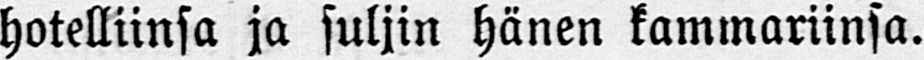hotelliinsa ja suljin hänen kammariinsa.
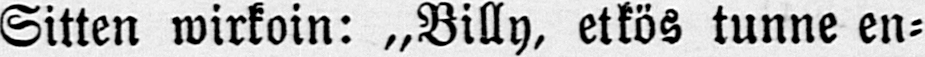Sitten wirkoin: „Billy, etkös tunne en-
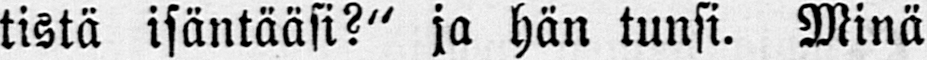tistä isäntääsi?" ja hän tunsi. Minä
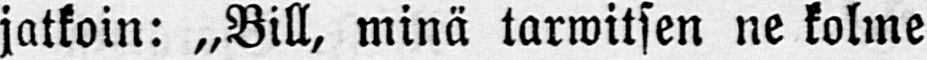jatkoin: „Bill, minä tarwitsen ne kolme
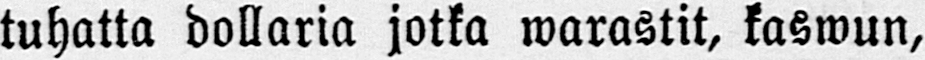tuhatta dollaria jotka warastit, kaswun,
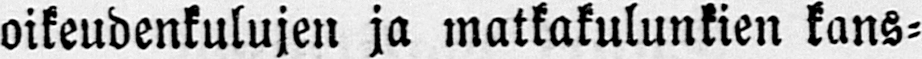oikeudenkulujen ja matkakulunkien kans-
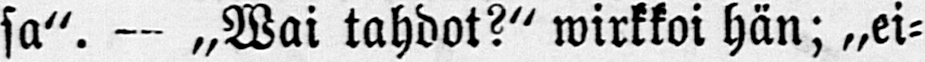sa". — „Wai tahdot?" wirkkoi hän; „ei-
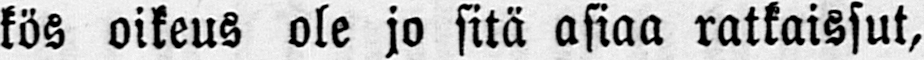kös oikeus ole jo sitä asiaa ratkaissut,
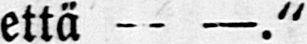että — —."
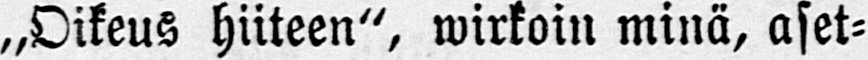„Oikeus hiiteen", wirkoin minä, aset-
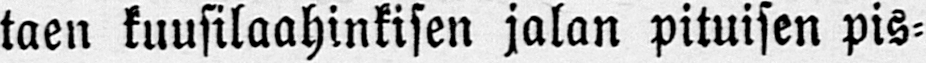taen kuusilaahinkisen jalan pituisen pis-
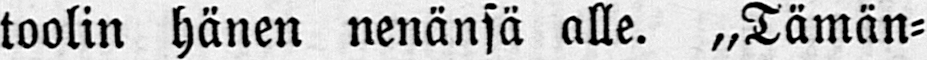toolin hänen nenänsä alle, tämän-
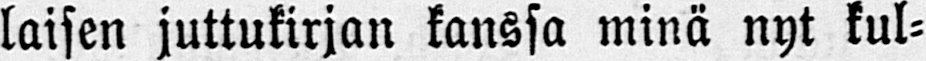laisen juttukirjan kanssa minä nyt kul-
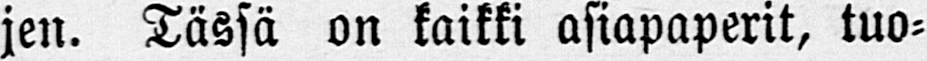jen. Tässä on kaikki asiapaperit, tuo-
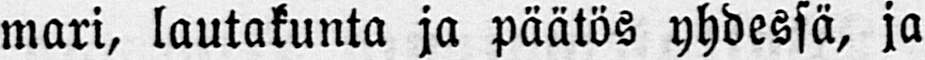mari, lautakunta ja päätös yhdessä, ja
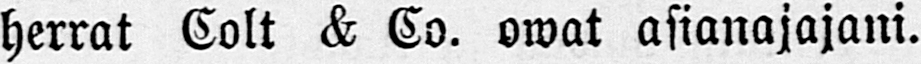herrat Colt & Co. owat asianajajani.
